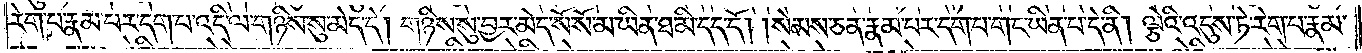རེག་པ་རྣམ་པར་དག་པ་འདི་ལ་གཉིས་སུ་མེད་དེ། གཉིས་སུ་བྱར་མེད་སོ་སོ་མ་ཡིན་ཐ་མི་དད་དོ། །སེམས་ཅན་རྣམ་པར་དག་པ་གང་ཡིན་པ་དེ་ནི། ལྕེའི་འདུས་ཏེ་རེག་པ་རྣམ་
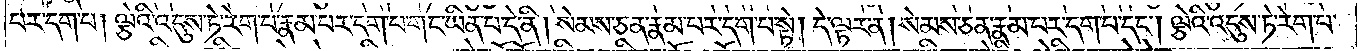པར་དག་པ། ལྕེའི་འདུས་ཏེ་རེག་པ་རྣམ་པར་དག་པ་གང་ཡིན་པ་དེ་ནི། སེམས་ཅན་རྣམ་པར་དག་པ་སྟེ། དེ་ལྟར་ན། སེམས་ཅན་རྣམ་པར་དག་པ་དང༌། ལྕེའི་འདུས་ཏེ་རེག་པ་
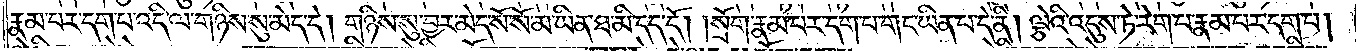རྣམ་པར་དག་པ་འདི་ལ་གཉིས་སུ་མེད་དེ། གཉིས་སུ་བྱར་མེད་སོ་སོ་མ་ཡིན་ཐ་མི་དད་དོ། །སྲོག་རྣམ་པར་དག་པ་གང་ཡིན་པ་དེ་ནི། ལྕེའི་འདུས་ཏེ་རེག་པ་རྣམ་པར་དག་པ།
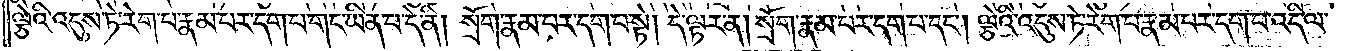ལྕེའི་འདུས་ཏེ་རེག་པ་རྣམ་པར་དག་པ་གང་ཡིན་པ་དེ་ནི། སྲོག་རྣམ་པར་དག་པ་སྟེ། དེ་ལྟར་ན། སྲོག་རྣམ་པར་དག་པ་དང༌། ལྕེའི་འདུས་ཏེ་རེག་པ་རྣམ་པར་དག་པ་འདི་ལ་
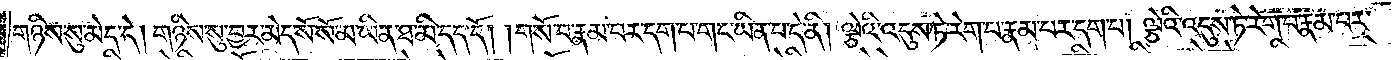གཉིས་སུ་མེད་དེ། གཉིས་སུ་བྱར་མེད་སོ་སོ་མ་ཡིན་ཐ་མི་དད་དོ། །གསོ་བ་རྣམ་པར་དག་པ་གང་ཡིན་པ་དེ་ནི། ལྕེའི་འདུས་ཏེ་རེག་པ་རྣམ་པར་དག་པ། ལྕེའི་འདུས་ཏེ་རེག་པ་རྣམ་པར་
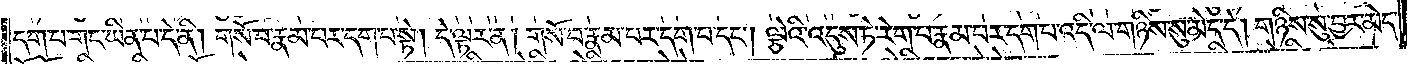དག་པ་གང་ཡིན་པ་དེ་ནི། གསོ་བ་རྣམ་པར་དག་པ་སྟེ། དེ་ལྟར་ན། གསོ་བ་རྣམ་པར་དག་པ་དང༌། ལྕེའི་འདུས་ཏེ་རེག་པ་རྣམ་པར་དག་པ་འདི་ལ་གཉིས་སུ་མེད་དེ། གཉིས་སུ་བྱར་མེད་
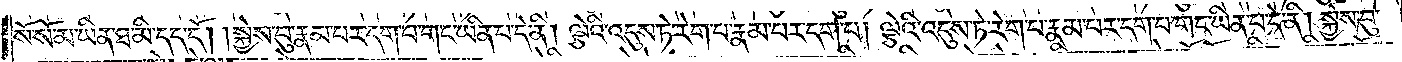སོ་སོ་མ་ཡིན་ཐ་མི་དད་དོ། །སྐྱེས་བུ་རྣམ་པར་དག་པ་གང་ཡིན་པ་དེ་ནི། ལྕེའི་འདུས་ཏེ་རེག་པ་རྣམ་པར་དག་པ། ལྕེའི་འདུས་ཏེ་རེག་པ་རྣམ་པར་དག་པ་གང་ཡིན་པ་དེ་ནི། སྐྱེས་བུ་
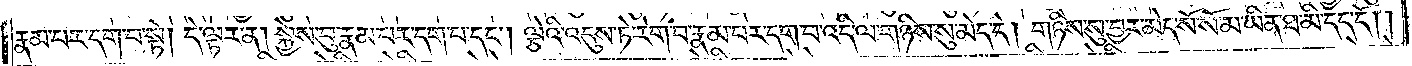རྣམ་པར་དག་པ་སྟེ། དེ་ལྟར་ན། སྐྱེས་བུ་རྣམ་པར་དག་པ་དང༌། ལྕེའི་འདུས་ཏེ་རེག་པ་རྣམ་པར་དག་པ་འདི་ལ་གཉིས་སུ་མེད་དེ། གཉིས་སུ་བྱར་མེད་སོ་སོ་མ་ཡིན་ཐ་མི་དད་དོ། །
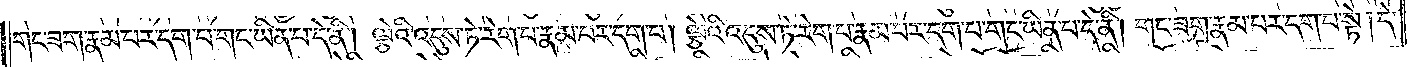གང་ཟག་རྣམ་པར་དག་པ་གང་ཡིན་པ་དེ་ནི། ལྕེའི་འདུས་ཏེ་རེག་པ་རྣམ་པར་དག་པ། ལྕེའི་འདུས་ཏེ་རེག་པ་རྣམ་པར་དག་པ་གང་ཡིན་པ་དེ་ནི། གང་ཟག་རྣམ་པར་དག་པ་སྟེ། དེ་
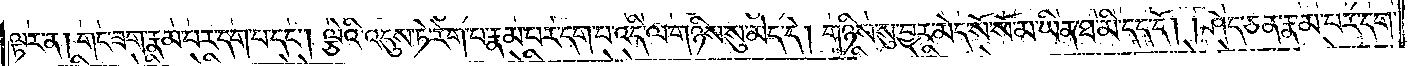ལྟར་ན། གང་ཟག་རྣམ་པར་དག་པ་དང༌། ལྕེའི་འདུས་ཏེ་རེག་པ་རྣམ་པར་དག་པ་འདི་ལ་གཉིས་སུ་མེད་དེ། གཉིས་སུ་བྱར་མེད་སོ་སོ་མ་ཡིན་ཐ་མི་དད་དོ། །ཤེད་ཅན་རྣམ་པར་དག་
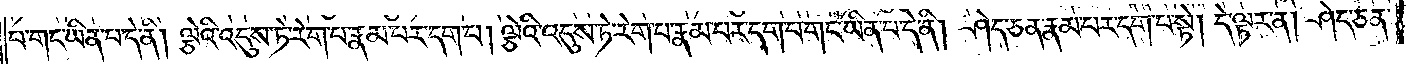པ་གང་ཡིན་པ་དེ་ནི། ལྕེའི་འདུས་ཏེ་རེག་པ་རྣམ་པར་དག་པ། ལྕེའི་འདུས་ཏེ་རེག་པ་རྣམ་པར་དག་པ་གང་ཡིན་པ་དེ་ནི། ཤེད་ཅན་རྣམ་པར་དག་པ་སྟེ། དེ་ལྟར་ན། ཤེད་ཅན་
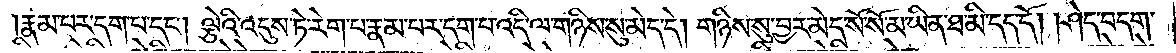རྣམ་པར་དག་པ་དང༌། ལྕེའི་འདུས་ཏེ་རེག་པ་རྣམ་པར་དག་པ་འདི་ལ་གཉིས་སུ་མེད་དེ། གཉིས་སུ་བྱར་མེད་སོ་སོ་མ་ཡིན་ཐ་མི་དད་དོ། །ཤེད་བདག་
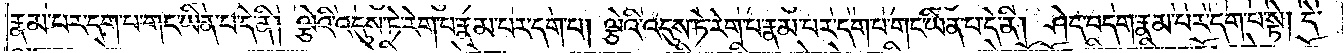རྣམ་པར་དག་པ་གང་ཡིན་པ་དེ་ནི། ལྕེའི་འདུས་ཏེ་རེག་པ་རྣམ་པར་དག་པ། ལྕེའི་འདུས་ཏེ་རེག་པ་རྣམ་པར་དག་པ་གང་ཡིན་པ་དེ་ནི། ཤེད་བདག་རྣམ་པར་དག་པ་སྟེ། དེ་
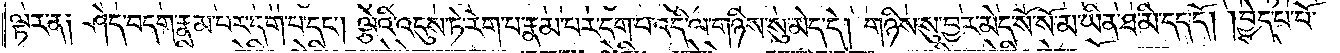ལྟར་ན༑ ཤེད་བདག་རྣམ་པར་དག་པ་དང༌། ལྕེའི་འདུས་ཏེ་རེག་པ་རྣམ་པར་དག་པ་འདི་ལ་གཉིས་སུ་མེད་དེ། གཉིས་སུ་བྱར་མེད་སོ་སོ་མ་ཡིན་ཐ་མི་དད་དོ། །བྱེད་པ་པོ་
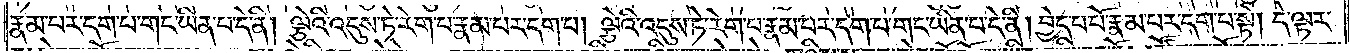རྣམ་པར་དག་པ་གང་ཡིན་པ་དེ་ནི། ལྕེའི་འདུས་ཏེ་རེག་པ་རྣམ་པར་དག་པ། ལྕེའི་འདུས་ཏེ་རེག་པ་རྣམ་པར་དག་པ་གང་ཡིན་པ་དེ་ནི། བྱེད་པ་པོ་རྣམ་པར་དག་པ་སྟེ། དེ་ལྟར་
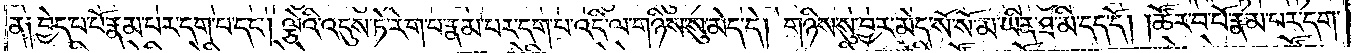ན༑ བྱེད་པ་པོ་རྣམ་པར་དག་པ་དང༌། ལྕེའི་འདུས་ཏེ་རེག་པ་རྣམ་པར་དག་པ་འདི་ལ་གཉིས་སུ་མེད་དེ། གཉིས་སུ་བྱར་མེད་སོ་སོ་མ་ཡིན་ཐ་མི་དད་དོ། །ཚོར་བ་པོ་རྣམ་པར་དག་
